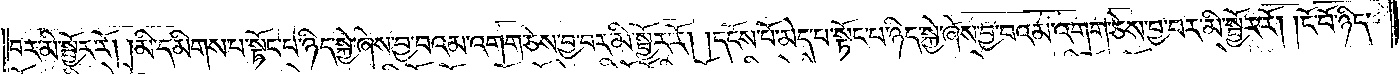བར་མི་སྦྱོར་རོ། །མི་དམིགས་པ་སྟོང་པ་ཉིད་སྐྱེ་ཞེས་བྱ་བའམ་འགག་ཅེས་བྱ་བར་མི་སྦྱོར་རོ། །དངོས་པོ་མེད་པ་སྟོང་པ་ཉིད་སྐྱེ་ཞེས་བྱ་བའམ་འགག་ཅེས་བྱ་བར་མི་སྦྱོར་རོ། །ངོ་བོ་ཉིད་
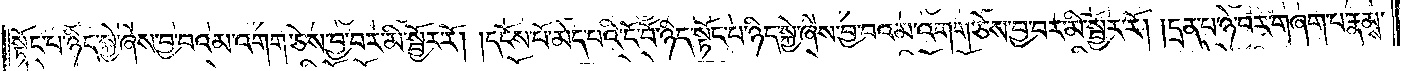སྟོང་པ་ཉིད་སྐྱེ་ཞེས་བྱ་བའམ་འགག་ཅེས་བྱ་བར་མི་སྦྱོར་རོ། །དངོས་པོ་མེད་པའི་ངོ་བོ་ཉིད་སྟོང་པ་ཉིད་སྐྱེ་ཞེས་བྱ་བའམ་འགག་ཅེས་བྱ་བར་མི་སྦྱོར་རོ། །དྲན་པ་ཉེ་བར་གཞག་པ་རྣམས་
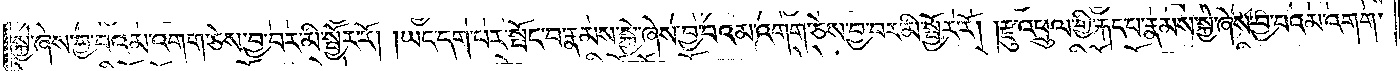སྐྱེ་ཞེས་བྱ་བའམ་འགག་ཅེས་བྱ་བར་མི་སྦྱོར་རོ། །ཡང་དག་པར་སྤོང་བ་རྣམས་སྐྱེ་ཞེས་བྱ་བའམ་འགག་ཅེས་བྱ་བར་མི་སྦྱོར་རོ། །རྫུ་འཕྲུལ་གྱི་རྐང་པ་རྣམས་སྐྱེ་ཞེས་བྱ་བའམ་འགག་
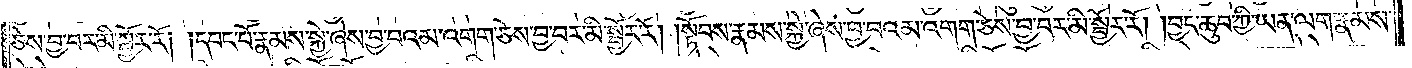ཅེས་བྱ་བར་མི་སྦྱོར་རོ། །དབང་པོ་རྣམས་སྐྱེ་ཞེས་བྱ་བའམ་འགག་ཅེས་བྱ་བར་མི་སྦྱོར་རོ། །སྟོབས་རྣམས་སྐྱེ་ཞེས་བྱ་བའམ་འགག་ཅེས་བྱ་བར་མི་སྦྱོར་རོ། །བྱང་ཆུབ་ཀྱི་ཡན་ལག་རྣམས་
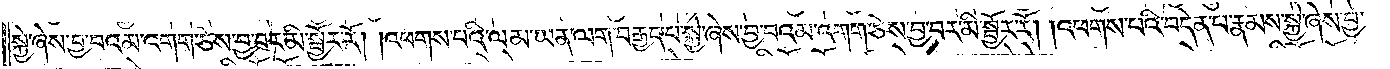སྐྱེ་ཞེས་བྱ་བའམ་འགག་ཅེས་བྱ་བར་མི་སྦྱོར་རོ། །འཕགས་པའི་ལམ་ཡན་ལག་བརྒྱད་པ་སྐྱེ་ཞེས་བྱ་བའམ་འགག་ཅེས་བྱ་བར་མི་སྦྱོར་རོ། །འཕགས་པའི་བདེན་པ་རྣམས་སྐྱེ་ཞེས་བྱ་
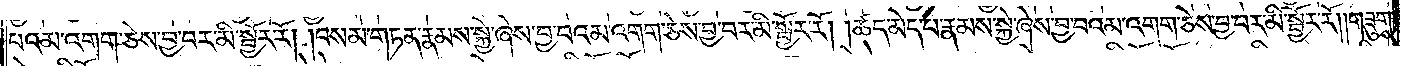བའམ་འགག་ཅེས་བྱ་བར་མི་སྦྱོར་རོ། །བསམ་གཏན་རྣམས་སྐྱེ་ཞེས་བྱ་བའམ་འགག་ཅེས་བྱ་བར་མི་སྦྱོར་རོ། །ཚད་མེད་པ་རྣམས་སྐྱེ་ཞེས་བྱ་བའམ་འགག་ཅེས་བྱ་བར་མི་སྦྱོར་རོ། །གཟུགས་
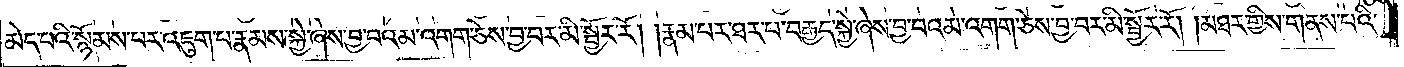མེད་པའི་སྙོམས་པར་འཇུག་པ་རྣམས་སྐྱེ་ཞེས་བྱ་བའམ་འགག་ཅེས་བྱ་བར་མི་སྦྱོར་རོ། །རྣམ་པར་ཐར་པ་བརྒྱད་སྐྱེ་ཞེས་བྱ་བའམ་འགག་ཅེས་བྱ་བར་མི་སྦྱོར་རོ། །མཐར་གྱིས་གནས་པའི་
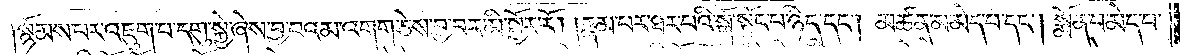སྙོམས་པར་འཇུག་པ་དགུ་སྐྱེ་ཞེས་བྱ་བའམ་འགག་ཅེས་བྱ་བར་མི་སྦྱོར་རོ། །རྣམ་པར་ཐར་པའི་སྒོ་སྟོང་པ་ཉིད་དང༌། མཚན་མ་མེད་པ་དང༌། སྨོན་པ་མེད་པ་
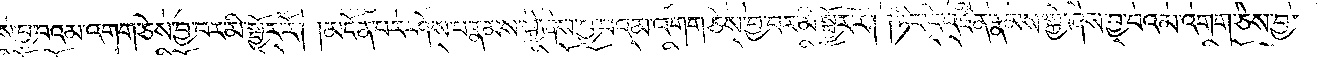སྐྱེ་ཞེས་བྱ་བའམ་འགག་ཅེས་བྱ་བར་མི་སྦྱོར་རོ། །མངོན་པར་ཤེས་པ་རྣམས་སྐྱེ་ཞེས་བྱ་བའམ་འགག་ཅེས་བྱ་བར་མི་སྦྱོར་རོ། །ཏིང་ངེ་འཛིན་རྣམས་སྐྱེ་ཞེས་བྱ་བའམ་འགག་ཅེས་བྱ་
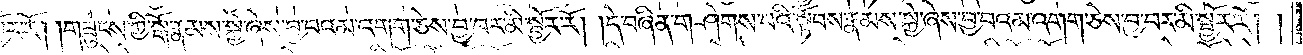བར་མི་སྦྱོར་རོ། །གཟུངས་ཀྱི་སྒོ་རྣམས་སྐྱེ་ཞེས་བྱ་བའམ་འགག་ཅེས་བྱ་བར་མི་སྦྱོར་རོ། །དེ་བཞིན་གཤེགས་པའི་སྟོབས་རྣམས་སྐྱེ་ཞེས་བྱ་བའམ་འགག་ཅེས་བྱ་བར་མི་སྦྱོར་རོ། །
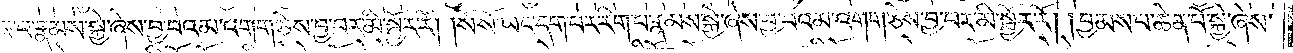མི་འཇིགས་པ་རྣམས་སྐྱེ་ཞེས་བྱ་བའམ་འགག་ཅེས་བྱ་བར་མི་སྦྱོར་རོ། །སོ་སོ་ཡང་དག་པར་རིག་པ་རྣམས་སྐྱེ་ཞེས་བྱ་བའམ་འགག་ཅེས་བྱ་བར་མི་སྦྱོར་རོ། །བྱམས་པ་ཆེན་པོ་སྐྱེ་ཞེས་
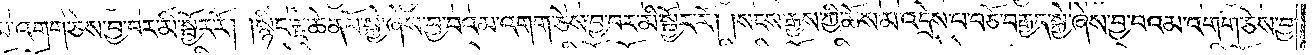བྱ་བའམ་འགག་ཅེས་བྱ་བར་མི་སྦྱོར་རོ། །སྙིང་རྗེ་ཆེན་པོ་སྐྱེ་ཞེས་བྱ་བའམ་འགག་ཅེས་བྱ་བར་མི་སྦྱོར་རོ། །སངས་རྒྱས་ཀྱི་ཆོས་མ་འདྲེས་པ་བཅོ་བརྒྱད་སྐྱེ་ཞེས་བྱ་བའམ་འགག་ཅེས་བྱ་
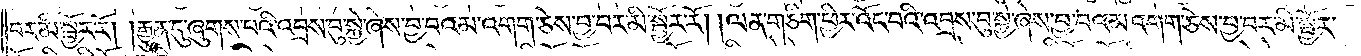བར་མི་སྦྱོར་རོ། །རྒྱུན་དུ་ཞུགས་པའི་འབྲས་བུ་སྐྱེ་ཞེས་བྱ་བའམ་འགག་ཅེས་བྱ་བར་མི་སྦྱོར་རོ། །ལན་གཅིག་ཕྱིར་འོང་བའི་འབྲས་བུ་སྐྱེ་ཞེས་བྱ་བའམ་འགག་ཅེས་བྱ་བར་མི་སྦྱོར་
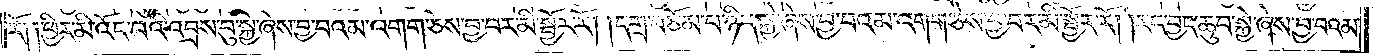རོ༑ ༑ཕྱིར་མི་འོང་བའི་འབྲས་བུ་སྐྱེ་ཞེས་བྱ་བའམ་འགག་ཅེས་བྱ་བར་མི་སྦྱོར་རོ། །དགྲ་བཅོམ་པ་ཉིད་སྐྱེ་ཞེས་བྱ་བའམ་འགག་ཅེས་བྱ་བར་མི་སྦྱོར་རོ། །རང་བྱང་ཆུབ་སྐྱེ་ཞེས་བྱ་བའམ་
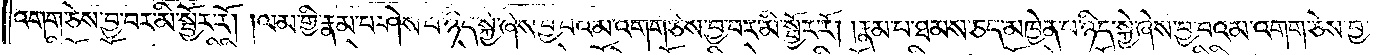འགག་ཅེས་བྱ་བར་མི་སྦྱོར་རོ། །ལམ་གྱི་རྣམ་པ་ཤེས་པ་ཉིད་སྐྱེ་ཞེས་བྱ་བའམ་འགག་ཅེས་བྱ་བར་མི་སྦྱོར་རོ། །རྣམ་པ་ཐམས་ཅད་མཁྱེན་པ་ཉིད་སྐྱེ་ཞེས་བྱ་བའམ་འགག་ཅེས་བྱ་
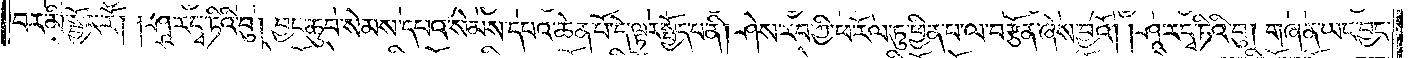བར་མི་སྦྱོར་རོ། །ཤཱ་ར་དྭ་ཏིའི་བུ། བྱང་ཆུབ་སེམས་དཔའ་སེམས་དཔའ་ཆེན་པོ་དེ་ལྟར་སྤྱོད་པ་ནི། ཤེས་རབ་ཀྱི་ཕ་རོལ་ཏུ་ཕྱིན་པ་ལ་བརྩོན་ཞེས་བྱའོ། །ཤཱ་ར་དྭ་ཏིའི་བུ། གཞན་ཡང་བྱང་
